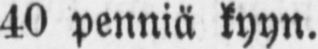40 penniä kyyn.
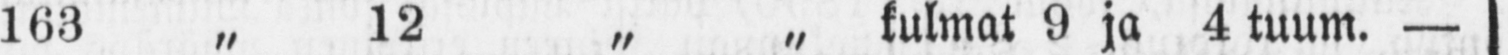163 „ 12 „ „ kulmat 9 ja 4 tuum. —
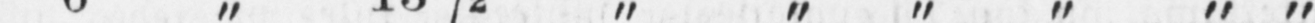6 „ 13½ „ „ „ „ „ „ —
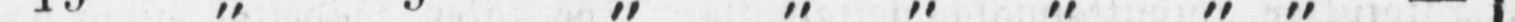19 „ 9 „ „ „ „ „ „ —
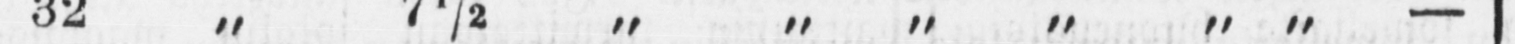32 „ 7½ „ „ „ „ „ „ —
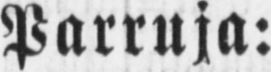Parruja:
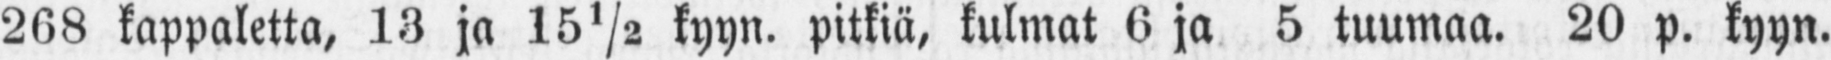268 kappaletta, 13 ja 15½ kyyn. pitkiä, kulmat 6 ja 5 tuumaa. 20 p. kyyn.
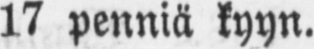17 penniä kyyn.
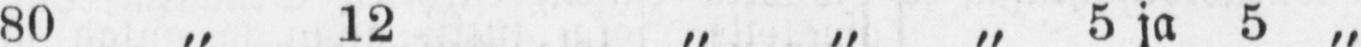80 „ 12 „ „ „ 5 ja 5 „ —
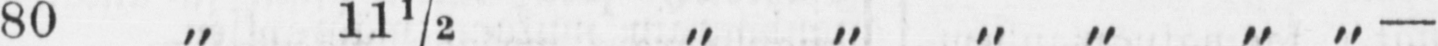80 „ 11½ „ „ „ „ „ „ —
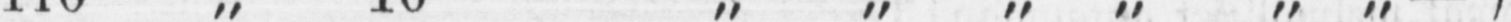110 „ 10 „ „ „ „ „ „ —
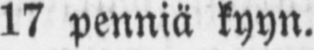17 penniä kynn.
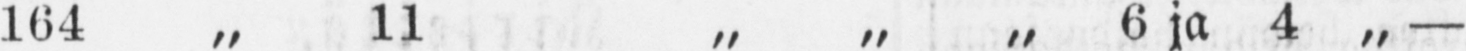164 „ 11 „ „ „ 6 ja 4 „ —
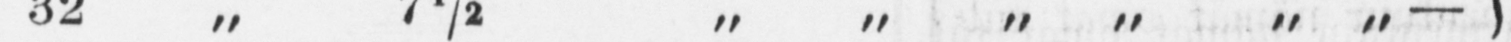32 „ 7½ „ „ „ „ „ „ —
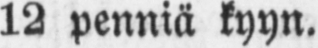12 penniä kyyn.
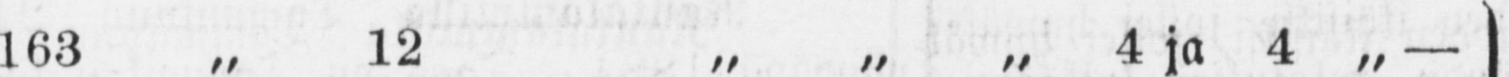163 „ 12 „ „ „ 4 ja 4 „ —
